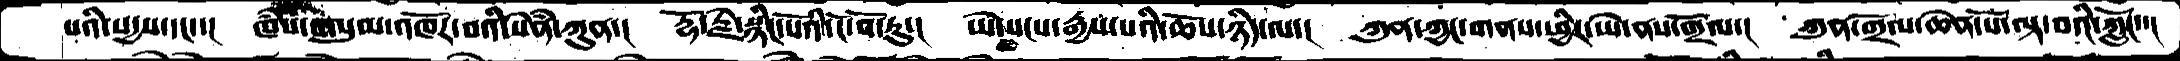པའི་སདྱས་དང་་། ཁཾས་གསུམ་འཁོར་བའི་སེཾན་ཀུན་། རྡོ་རྗེ་སྙིང་པོའི་ངོ་བོ་རུ་། ཡེ་སངས་རྒྱས་པའི་ཆོས་ཉིད་ལ་། ཀུནཀྱང་གནས་ཕྱིར་ཡེ་ནས་གྲོལ་། ཀུན་གྲོལ་ཆེན་པོ་ལྟ་བའི་ཀློང་་།
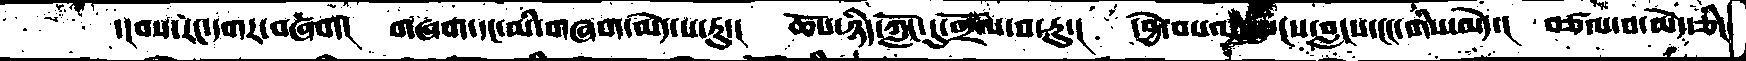་།བས་རང་དགར་བཞག། གཞག་དང་མི་གཞག་མེད་པ་ཏུ་། ཆོས་ཉིད་ཀློང་དུ་གྲོལ་བ་རུ་། དབྱེ་བསལ་སྤངས་བླངས་ངང་གིས་མེད་། བཙལ་བ་མེད་ཅིང
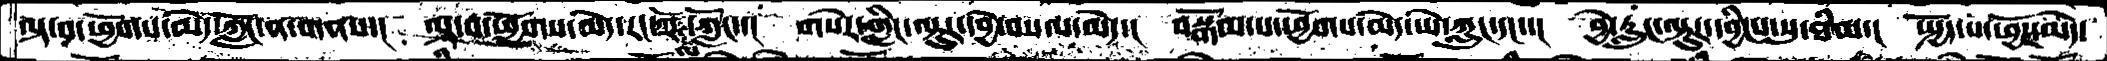ལྟ་བ་ཕྱོགས་མེད་ཀློང་ན་གནས་། ལྟ་བ་ཕྱོགས་མེད་རང་ལཾ་ཀློང་་། གསེར་གླིང་ལྟུར་དབྱེ་བསལ་མེད་། བསྒོམ་པ་ཕྱོགས་མེད་ཡེ་ཀླུང་དང་་། བྱེ་རླུང་ལྟུར་དབྱིངས་སུ་ཐིམ་། སྤྱོད་པ་ཕྱོཌ་མེད་
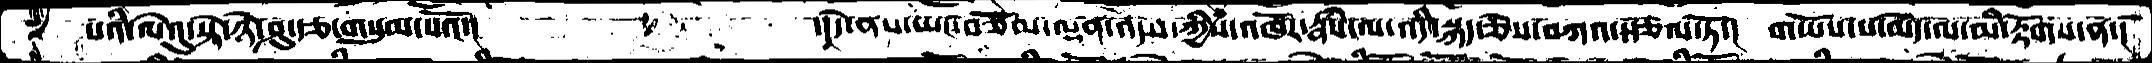པའི་ལེའུ་སྟེ་ཉེ་ཤུ་རྩ་གསུམ་པའོ་།       ་།དེ་ནས་ཡང་བཅོམ་ལྡན་འདས་ཀྱིས་འཁོར་རྣཾས་ལ་འདི་སྐད་ཅེས་བཀའ་སྩལ་ཏོ་། གཡོས་པ་མེད་ལ་མི་རྟོགས་ན་།
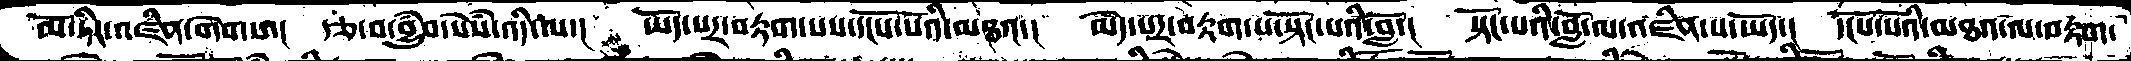མོ་ཏིང་འཛིན་གེགས་། རྩ་བ་བྱུཾབ་སེཾས་འདི་ལ་། ཡོད་པར་བརྟགས་པས་དངོས་པོའི་མཐའ་། མེད་པར་བརྟག་པ་སྟོང་པའི་བློ་། སྟོང་པའི་བློ་ལ་འཛིན་ས་ཡོད་། དངོས་པོའི་མཐའ་ལ་བརྟག
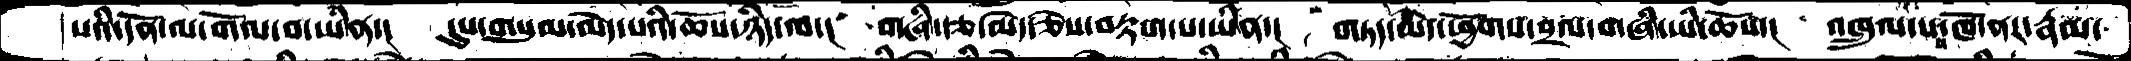པའི་དོན་ལ་གོལ་བ་ཡིན་། དུས་གསུམ་མེད་པའི་ཆོས་ཉིད་ལ་། གཞི་རྩ་མེད་ཅེས་བརྟག་པ་ཡིན་། གཏད་མེད་ཕྱོགས་བྲལ་གཞི་ཡི་ཆོས་། འཁྲུལ་པས་ཁོ་ནར་རྣམ་
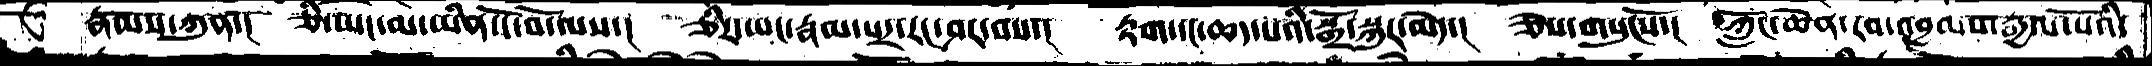རྣམས་ཀུན་། ཅི་ཡང་མ་ཡིན་ངོ་བོ་ལས་། ཅིར་ཡང་རྣམ་པར་རང་ཤར་བས་། རྟག་དང་ཆད་པའི་སྒྲོ་སྐུར་མེད་། ཅེས་གསུངསོ་། ཀློང་ཆེན་རབ་འབྱམས་རྒྱལ་པོའི་
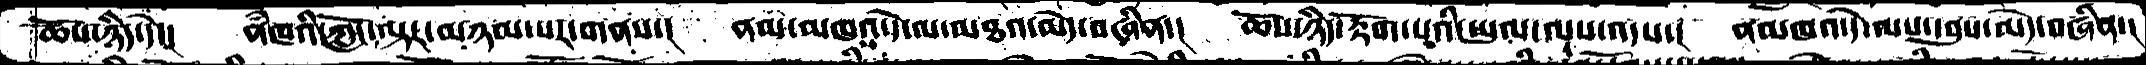ཆོས་ཉིད་དེ་། ནཾཁའི་ཀློང་ལྟར་མཉམ་པར་གནས་། ནམ་མཁའ་དེ་ལ་མཐའ་མེད་བཞིན་། ཆོས་ཉིད་རྟོག་པའི་ཡུལ་ལས་འདས་། ནམཁའ་དེ་ལས་དབུས་མེད་བཞིན་།
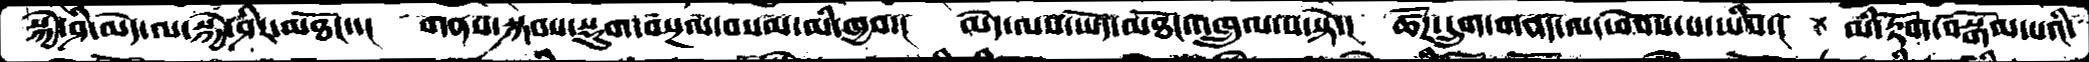སྐྱེ་ཤི་མེད་ལ་སྐྱེ་ཤིར་མཐོང་་། གནས་སྐབསསྡུག་བསྔལ་བསམ་མི་ཁྱབ་། མེད་ལས་ཡོད་མཐོང་འཁྲུལ་པ་སྟེ་། ཚོཌ་དྲུག་གནད་ལ་ཕེབས་པ་ཡིས་། མི་རྟོག་བསྒོམ་པའི་
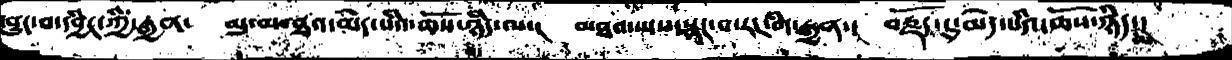བྱུང་བ་དབྱིང་ཀྱི་རྒྱན་ མུ་མཐའ་མེད་པའི་ཆོས་ཉིད་ལ་། མཐའ་ཡས་སྣང་བ་རང་གི་རྒྱན་། བརྗོད་དུ་མེད་པའི་ཆོས་ཉིད་མེད་་
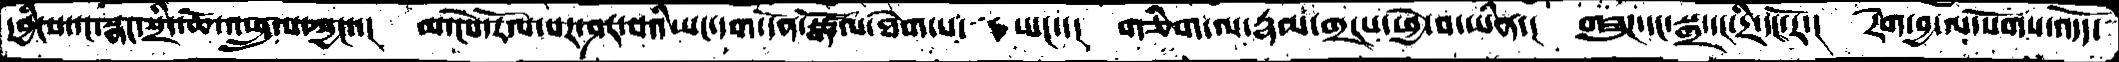དབྱིངས་དང་སྣང་སྲིད་ཆོ་འཕྲུལ་ཀྱང་་། མ་ངེས་རོལ་པར་ཤར་བའི་ཡང་དག་དོན་སྒོ་ལ་ཐེག་པ་ཡང་་། གཅིག་ལ་རྣམ་གྲྲངས་ཕྱེ་བ་ཡིན་། གཟུཌ་དང་སྒྲ་དང་དྲི་དང་རོ་། རེག་བྱ་ལ་སོགས་འདོད་
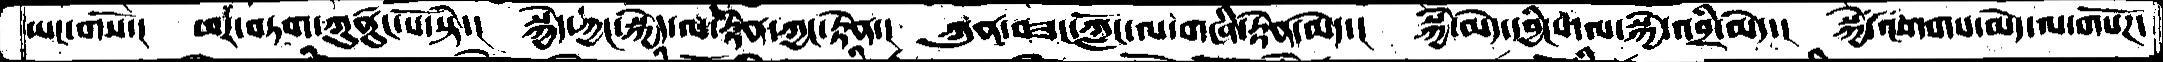ཡང་གསོ་། ཕར་བཏག་ཀུནུཟང་པོ་སྟེ་། སྐྱེད་ཀྱང་སྐྱེད་ལ་རྟེན་ཀྱང་རྟེན་། ཀུན་བཟང་ཀློང་ལ་གཞི་རྟེན་མེད་། སྐྱེ་མེད་དབྱིངས་ལ་སྐྱེ་འབྲི་མེད་། སྐྱེ་འགགས་མེད་ལ་གསོཌ་
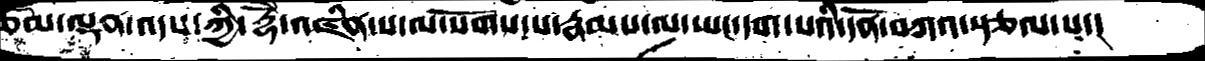བཅོམ་ལྡན་འདས་ཀྱི་རྡོེ་འཛིན་པ་ལ་སོགས་པ་རྣམས་ལ་ཡང་དག་པའི་དོན་བཀའ་སྩལ་པ་།
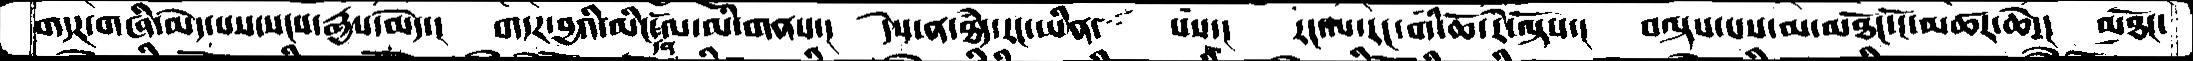གདཌ་གཞི་མེད་པས་སངས་རྒྱས་མེད་། གདཌ་བྱའི་མིང་དོན་ལ་མི་གནས་། དེས་ན་ཐཾད་རང་ཡིན་  པས་། རང་ལ་རང་གི་ཆོ་རེ་ལྟོས་། བལྟས་པས་མ་མཐོང་ངོ་མཚར་ཆེ་། མཐོང་
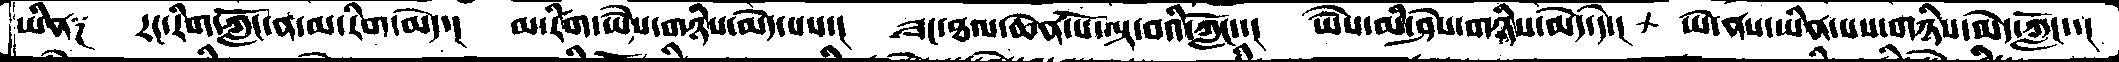ཡིན༑ རང་རིག་ཀློང་ན་མ་རིག་མེད་། མ་རིག་ཡཻས་གཉིས་མེད་པས་། ཟང་ཐལ་ཆེན་པོ་ལྟ་བའི་ཀློང་་། ཡཻས་མི་ཤེས་གཉིས་མེད་དེ་། ཡེ་ནས་ཡིན་པས་གཉིས་མེད་ཀློང་་།
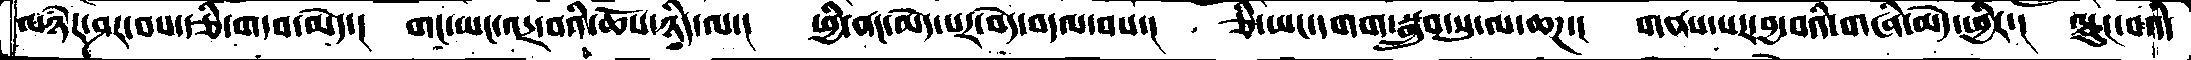མཉཾར་ཤར་བས་རྩི་གདབ་མེད་། གང་ཡང་འདྲ་བའི་ཆོས་ཉིད་ལ་། ཕྱི་ནང་མེད་པར་བདེ་བདལ་བས་། ཅི་ཡང་དགག་སྒྲུབ་སུ་ལ་ཆཌ་། གནས་པར་བྱ་བའི་གཞི་མེད་ཕྱིར་། ལྷུང་བའི་
